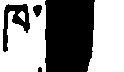ཁ་
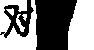对
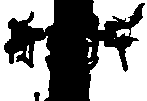བློ  སྐྱེད
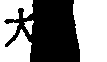大
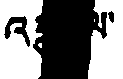འ  ལ་
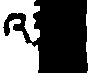འ
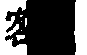客
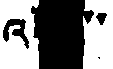འ  ་་
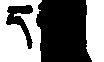ད
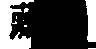藏
